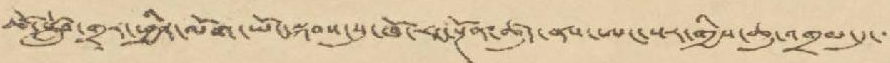ཚོ་སློབ་གྲྭར་ཕྱིར་ལོག་ཡོང་སྐབས་སུ་ཁོ་རང་སྔོན་ཚུད་ནས་ཨང་སར་གྱོས་ཆུ་འགྲམ་དུ་་་
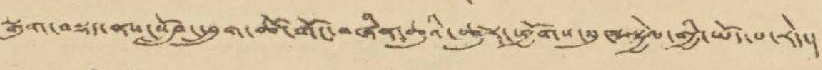སྒུག་བསྡད་ནས་སློབ་ཕྲུག་ཚོ་གོང་བཞིན་ཆུའི་ཚུར་ཕྱོགས་སུ་བསྐྱེལ་གྱི་ཡོད་པ་རེད་།
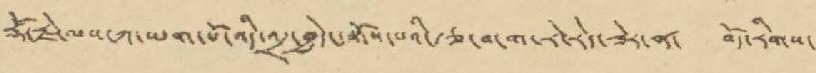རྡོ་རྗེ་ལས་ཀ་ཡག་པོ་འདི་འདྲ་བྱེད་དགོས་པའི་རྩ་བ་ག་རེ་རེད་ཟེར་ན་ བོད་རིགས་
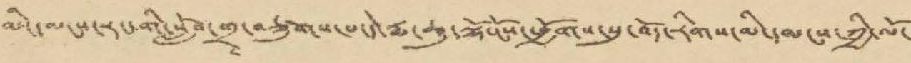མི་དམངས་རང་གི་སློབ་གྲྭ་བཙུགས་པ་དེ་རྨ་ཆུ་ལྷོ་ངོས་ཕྱོགས་སུ་བོད་རིགས་མི་དམངས་ཀྱི་ལོ་
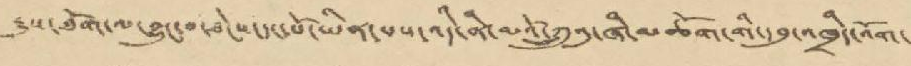རྒྱུས་ཐོག་ལ་བྱུང་བ་ཐེངས་དང་པོ་ཡིན་པས་འདི་ནི་མའོ་ཀྲུའུ་ཞི་མཆོག་གི་དབུ་འཁྲིད་འོག་
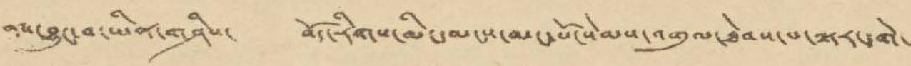ནས་བྱུང་བ་ཡིན་གཤིས་ བོད་རིགས་མི་དམངས་མང་པོ་སེམས་འགུལ་ཐེབས་པ་ལྟར་དགེ་
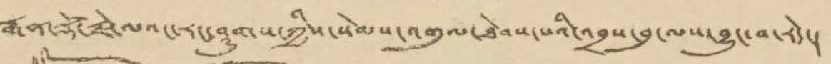རྒན་རྡོ་རྗེ་ལའང་རང་ཤུགས་ཀྱིས་སེམས་འགུལ་ཐེབས་པའི་འབྲས་བུ་ལས་བྱུང་བ་རེད་།
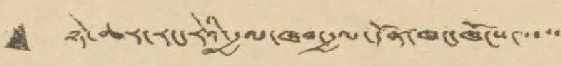• ཉེ་ཆར་རང་རེའི་རྒྱལ་ཁབ་རྒྱལ་དོན་ཁང་ཁོངས་་་་་
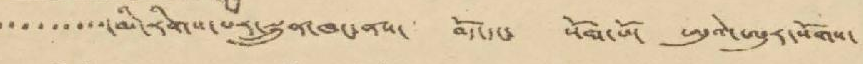་་་་་་་་་་་་་་མི་རིགས་པར་སྐྲུན་ཁང་ནས་ བོད་དང་ སོག་པོ་ ཨུའེ་ཨུར་སོགས་
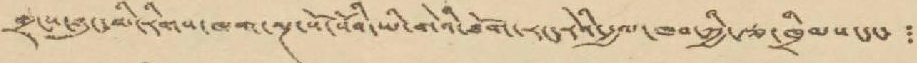གྲངས་ཉུང་མི་རིགས་ཁག་ལྔ་སོ་སོའི་ཡི་གེའི་ཐོག་རངག་རེའི་རྒྱལ་ཁབ་ཀྱི་རྩ་ཁྲིམས་དང་ ་
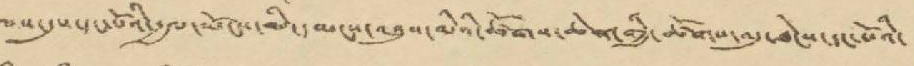ལས་དུས་དང་པོའི་རྒྱལ་ཡོངས་མི་དམངས་འཐུས་མིའི་ཚོགས་ཆེན་གྱི་ཚོགས་འདུ་ཐེངས་དང་པོའི་
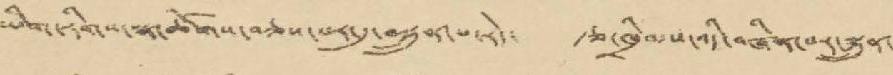ཡིག་རིགས་སྣ་ཚོགས་བཅས་པར་དུ་བསྐྲུན་པ་རེད་ རྩ་ཁྲིམས་འདི་བཞིན་པར་སྐྲུན་
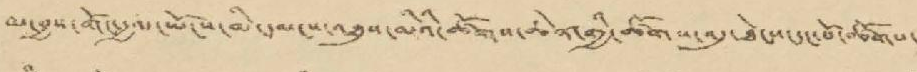མ་བྱས་གོང་རྒྱལ་ཡོངས་མི་དམངས་འཐུས་མིའི་ཚོགས་ཆེན་གྱི་ཚོགས་འདུ་ཐེངས་དང་པོ་ཚོགས་
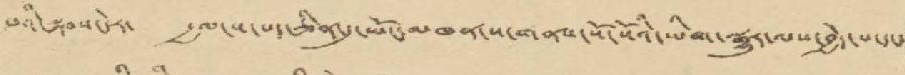པའི་སྐབས་དེར་ རྒྱལ་ས་པད་ཅིན་དུ་ཡོང་མཁན་གནས་སོ་སོའི་ཡིག་སྒྱུར་ལས་བྱེད་པ་དང་
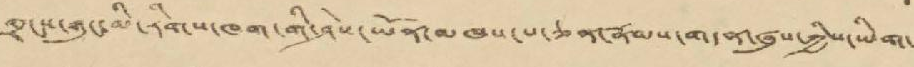གྲངས་ཉུང་མི་རིགས་ཁག་གི་ཤེས་ཡོན་མཁས་པ་ཅན་རྣམས་གདན་ཞུས་ཀྱིས་ཡིག་
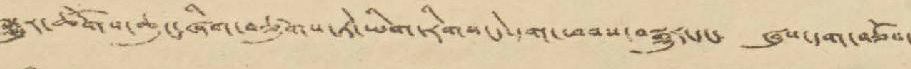སྒྱུར་ཚོགས་ཆུང་ཞིག་བཙུགས་ཏེ་ཡིག་རིགས་དེ་དག་ཕབས་བསྒྱུར་དང་ ཞུས་དག་བཅོས་
